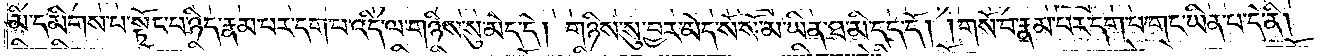མི་དམིགས་པ་སྟོང་པ་ཉིད་རྣམ་པར་དག་པ་འདི་ལ་གཉིས་སུ་མེད་དེ། གཉིས་སུ་བྱར་མེད་སོ་སོ་མ་ཡིན་ཐ་མི་དད་དོ། །གསོ་བ་རྣམ་པར་དག་པ་གང་ཡིན་པ་དེ་ནི།
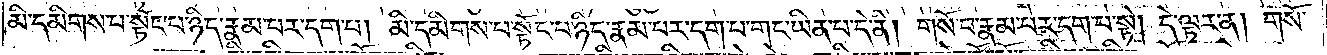མི་དམིགས་པ་སྟོང་པ་ཉིད་རྣམ་པར་དག་པ། མི་དམིགས་པ་སྟོང་པ་ཉིད་རྣམ་པར་དག་པ་གང་ཡིན་པ་དེ་ནི། གསོ་བ་རྣམ་པར་དག་པ་སྟེ། དེ་ལྟར་ན། གསོ་
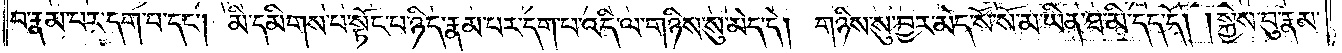བ་རྣམ་པར་དག་པ་དང༌། མི་དམིགས་པ་སྟོང་པ་ཉིད་རྣམ་པར་དག་པ་འདི་ལ་གཉིས་སུ་མེད་དེ། གཉིས་སུ་བྱར་མེད་སོ་སོ་མ་ཡིན་ཐ་མི་དད་དོ། །སྐྱེས་བུ་རྣམ་
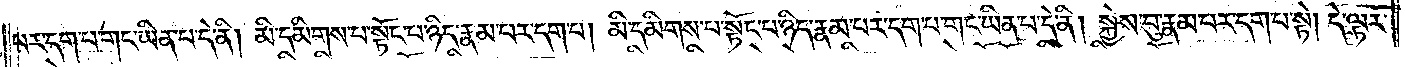པར་དག་པ་གང་ཡིན་པ་དེ་ནི། མི་དམིགས་པ་སྟོང་པ་ཉིད་རྣམ་པར་དག་པ། མི་དམིགས་པ་སྟོང་པ་ཉིད་རྣམ་པར་དག་པ་གང་ཡིན་པ་དེ་ནི། སྐྱེས་བུ་རྣམ་པར་དག་པ་སྟེ། དེ་ལྟར་
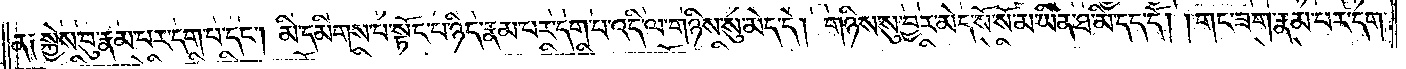ན། སྐྱེས་བུ་རྣམ་པར་དག་པ་དང༌། མི་དམིགས་པ་སྟོང་པ་ཉིད་རྣམ་པར་དག་པ་འདི་ལ་གཉིས་སུ་མེད་དེ། གཉིས་སུ་བྱར་མེད་སོ་སོ་མ་ཡིན་ཐ་མི་དད་དོ། །གང་ཟག་རྣམ་པར་དག་
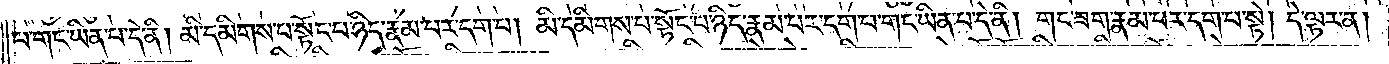པ་གང་ཡིན་པ་དེ་ནི། མི་དམིགས་པ་སྟོང་པ་ཉིད་རྣམ་པར་དག་པ། མི་དམིགས་པ་སྟོང་པ་ཉིད་རྣམ་པར་དག་པ་གང་ཡིན་པ་དེ་ནི། གང་ཟག་རྣམ་པར་དག་པ་སྟེ། དེ་ལྟར་ན།
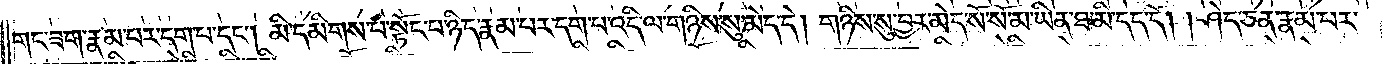གང་ཟག་རྣམ་པར་དག་པ་དང༌། མི་དམིགས་པ་སྟོང་པ་ཉིད་རྣམ་པར་དག་པ་འདི་ལ་གཉིས་སུ་མེད་དེ། གཉིས་སུ་བྱར་མེད་སོ་སོ་མ་ཡིན་ཐ་མི་དད་དོ། །ཤེད་ཅན་རྣམ་པར་
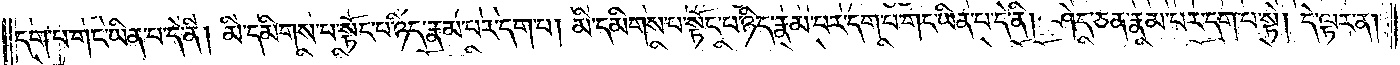དག་པ་གང་ཡིན་པ་དེ་ནི། མི་དམིགས་པ་སྟོང་པ་ཉིད་རྣམ་པར་དག་པ། མི་དམིགས་པ་སྟོང་པ་ཉིད་རྣམ་པར་དག་པ་གང་ཡིན་པ་དེ་ནི། ཤེད་ཅན་རྣམ་པར་དག་པ་སྟེ། དེ་ལྟར་ན།
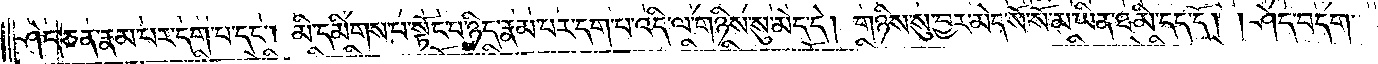ཤེད་ཅན་རྣམ་པར་དག་པ་དང༌། མི་དམིགས་པ་སྟོང་པ་ཉིད་རྣམ་པར་དག་པ་འདི་ལ་གཉིས་སུ་མེད་དེ། གཉིས་སུ་བྱར་མེད་སོ་སོ་མ་ཡིན་ཐ་མི་དད་དོ། །ཤེད་བདག་
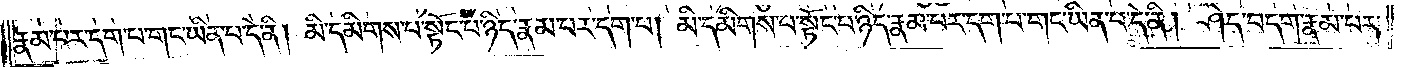རྣམ་པར་དག་པ་གང་ཡིན་པ་དེ་ནི། མི་དམིགས་པ་སྟོང་པ་ཉིད་རྣམ་པར་དག་པ། མི་དམིགས་པ་སྟོང་པ་ཉིད་རྣམ་པར་དག་པ་གང་ཡིན་པ་དེ་ནི། ཤེད་བདག་རྣམ་པར་
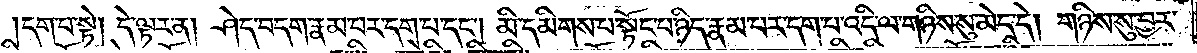དག་པ་སྟེ། དེ་ལྟར་ན། ཤེད་བདག་རྣམ་པར་དག་པ་དང༌། མི་དམིགས་པ་སྟོང་པ་ཉིད་རྣམ་པར་དག་པ་འདི་ལ་གཉིས་སུ་མེད་དེ། གཉིས་སུ་བྱར་
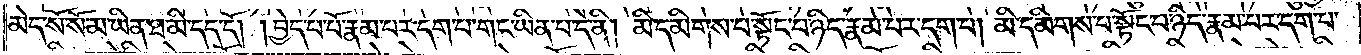མེད་སོ་སོ་མ་ཡིན་ཐ་མི་དད་དོ། །བྱེད་པ་པོ་རྣམ་པར་དག་པ་གང་ཡིན་པ་དེ་ནི། མི་དམིགས་པ་སྟོང་པ་ཉིད་རྣམ་པར་དག་པ། མི་དམིགས་པ་སྟོང་པ་ཉིད་རྣམ་པར་དག་པ་
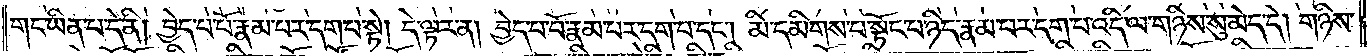གང་ཡིན་པ་དེ་ནི། བྱེད་པ་པོ་རྣམ་པར་དག་པ་སྟེ། དེ་ལྟར་ན། བྱེད་པ་པོ་རྣམ་པར་དག་པ་དང༌། མི་དམིགས་པ་སྟོང་པ་ཉིད་རྣམ་པར་དག་པ་འདི་ལ་གཉིས་སུ་མེད་དེ། གཉིས་
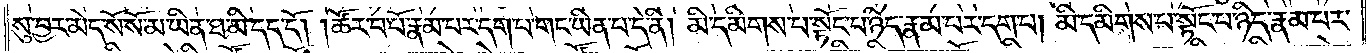སུ་བྱར་མེད་སོ་སོ་མ་ཡིན་ཐ་མི་དད་དོ། །ཚོར་བ་པོ་རྣམ་པར་དག་པ་གང་ཡིན་པ་དེ་ནི། མི་དམིགས་པ་སྟོང་པ་ཉིད་རྣམ་པར་དག་པ། མི་དམིགས་པ་སྟོང་པ་ཉིད་རྣམ་པར་
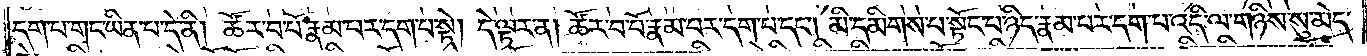དག་པ་གང་ཡིན་པ་དེ་ནི། ཚོར་བ་པོ་རྣམ་པར་དག་པ་སྟེ། དེ་ལྟར་ན། ཚོར་བ་པོ་རྣམ་པར་དག་པ་དང༌། མི་དམིགས་པ་སྟོང་པ་ཉིད་རྣམ་པར་དག་པ་འདི་ལ་གཉིས་སུ་མེད་
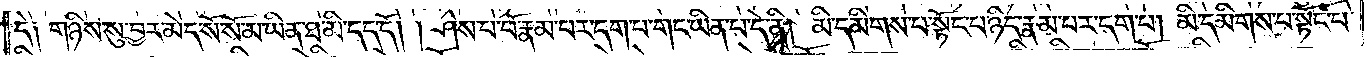དེ། གཉིས་སུ་བྱར་མེད་སོ་སོ་མ་ཡིན་ཐ་མི་དད་དོ། །ཤེས་པ་པོ་རྣམ་པར་དག་པ་གང་ཡིན་པ་དེ་ནི། མི་དམིགས་པ་སྟོང་པ་ཉིད་རྣམ་པར་དག་པ། མི་དམིགས་པ་སྟོང་པ་
